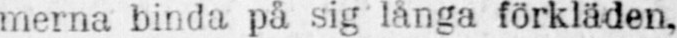merna binda på sig långa förkläden,
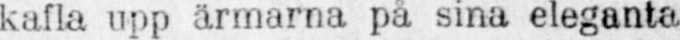kafla upp ärmarna på sina eleganta
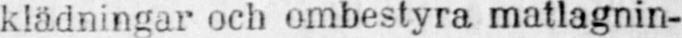klädningar och ombestyra matlagnin-
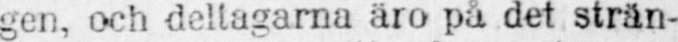gen, och deltagarna äro på det strän-
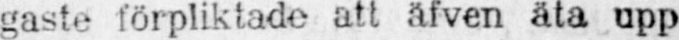gaste förpliktade att äfven äta upp
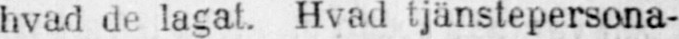hvad de lagat. Hvad tjänstepersona-
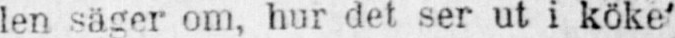len säger om, hur det ser ut i köke
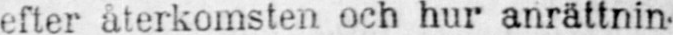efter återkomsten och hur anrättnin-
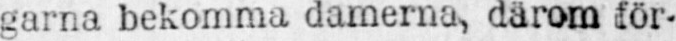garna bekomma damerna, därom för-
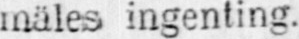mäles ingenting.
